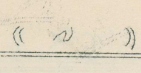(( ༧ )）
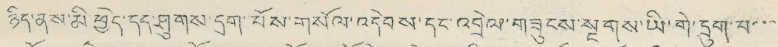ཉིད་ནས་མི བྱེད་དད་ཤུགས་དྲག་པོས་གསོལ་འདེབས་དང་འབྲེལ་གཟུངས་སྔགས་ཡི་གེ་དྲུག་པ་་་
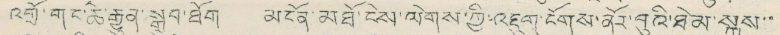འགྲོ་གང་ཆེ་རྒྱུན་སྒྲུབ་ཐོག མངོན་མཐོ་ངེས་ལེགས་ཀྱི་འཇུག་ངོགས་ནོར་བུའི་ཐེམ་སྐུས་་
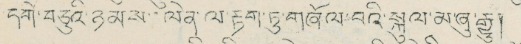དགེ་བཅུའི་ཉམས་ལེན་ལ་རྟག་ཏུ་གཞོལ་བའི་སྐལ་མཞུ་རྒྱུ།
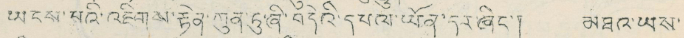ཡངས་པའི་འཇིགས་རྟེན་ཀུན་ཏུ་ཞི་བདེའི་དཔལ་ཡོན་དར་ཞིང་། མཐའ་ཡས་
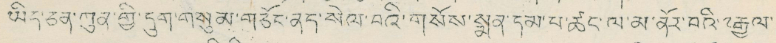ཡིད་ཅན་ཀུན་གྱི་དུག་གསུམ་གཅོང་ནད་སེལ་བའི་གསོས་སྨན་དམ་པ་ཚང་ལ་མ་ནོར་བའི་༸རྒྱལ་
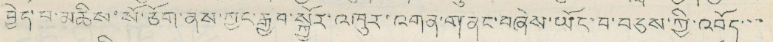བྱེད་པ་མཆིས་སོ་ཅོག་ནས་ཀྱང་རྒྱབ་སྐྱོར་འཁུར་འགན་གནང་བཞེས་ཡོད་བ་བཅས་ཀྱི་འབོད་་་་
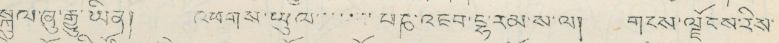སྐུལ་ཞུ་རྒྱུ་ཡིན། འཕགས་ཡུལ་་་་་་་་བཎ་འཇབ་བྷ་རམ་ས་ལ། གངས་ལྗོངས་རིས་
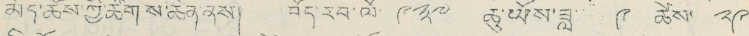མེད་ཆོས་ཀྱི་ཚོགས་ཆེན་ནས། བོད་རབ་ལོ་ ༩༢༧ ཆུ་ཡོས་ཟླ་ ༩ ཚེས་ ༢༩
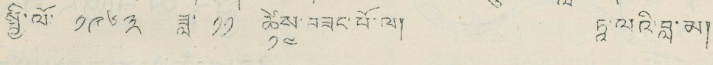སྤྱི་ལོ་ ༡༩༦༣ ཟླ་ ༡༡ ཚེས་ ༡༤ བཟང་པོ་ལ། ཏཱ་ལའི་བླ་མ།
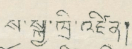ས་སྐྱ་ཁྲི་འཛིན།
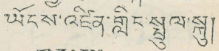ཡོངས་འཛིན་གླིང་སྤྲུལ་སྐུ་
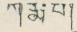ཀརྨ་པ།
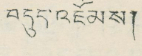བདུད་འཇོམས།
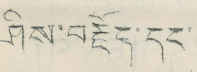ཤིས་བརྗོད་དང་།
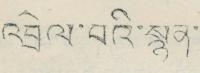འབྲེལ་བའི་སྙན་
